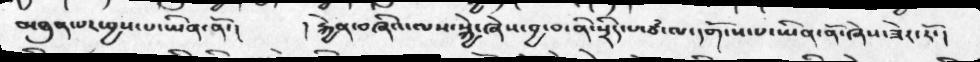མཐུན་པར་བྱས་པ་ཡིན་ནོ་།   །རྐྱེན་བཞིའ་ལས་སྐྱེ་ཞེས་བྱ་བ་ནི་སྲིད་པ་ཙཾ་ལ་དགོངས་པ་ཡིན་ནོ་ཞེས་ཟེར་རོ་།
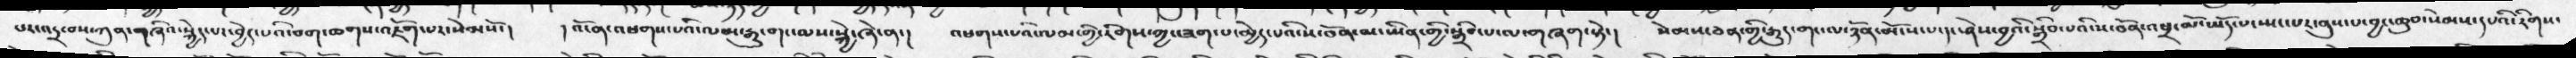པར་འདྲ་བས་ཀུན་གཞིའ་སྐྱེད་པར་བྱེད་པའི་བག་ཆགས་འཇོག་པར་སེམསོ་།  །འོ་ན་འཕགས་པའི་ལམ་རྒྱུ་གང་ལས་སྐྱེ་ཞེ་ན་།  འཕགས་པའི་ལམ་གྱི་རིགས་ཀྱང་ཟག་པ་མྱེད་པའི་ས་བོན་མ་ཡིན་གྱི་སྒྲིབ་པ་ལ་གཞག་སྟེ་།   སེམས་ཅན་གྱི་རྒྱུད་གང་ལ་ཉོན་མོངས་པ་དང་ཤེས་བྱའི་སྒྲིབ་པའི་ས་བོན་འཕྲ་མོ་ཡོད་པ་སྤང་སར་ནུས་པ་བྱང་ཆུབ་སེམས་དཔའི་རིགས་
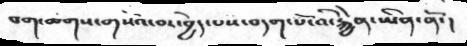བག་ཆགས་གསོའ་བར་བྱེད་པས་བདག་པོ་འི་རྐྱེན་ཡིན་ནོ་།
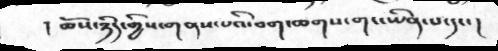། ཆོས་ཉིད་གྱིས་གནས་པའི་བག་ཆགས་གང་ཡིན་པ་དང་།
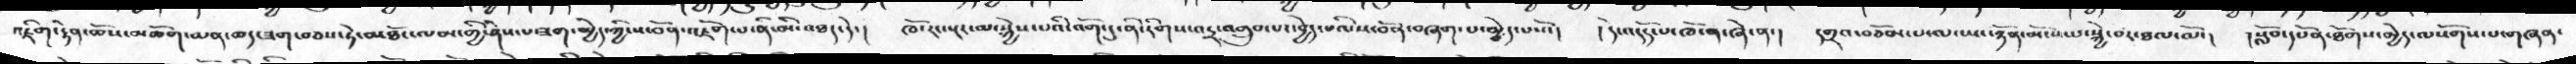འཇིག་རྟེན་ཆོས་མཆོག་མན་ཆད་ཟག་བཅས་ཏེ་མཐོང་ལམ་གྱི་ཤེས་པ་ཟག་མྱེད་ཀྱི་ས་བོན་འཇོག་པ་ནི་མི་འཐད་དེ་།   ཁོ་རང་སྔར་མ་སྐྱེས་པའི་འོག་དུ་ནི་རིགས་འདྲ་འགྲུབ་༷པར་བྱེད་པའི་ས་བོན་བཞག་པ་མྱེད་པསོ་།   །དེ་འདོད་པ་ཁོ་ན་ཞེ་ན་།  དགྲའ་བཅོམ་པ་ལ་ཡང་ཉོན་མོངས་པ་སྐྱེ་བར་ཐལ་ལོ་།   །སློབ་དཔོན་ཐོགས་མྱེད་ལསོགས་པ་གཞན་
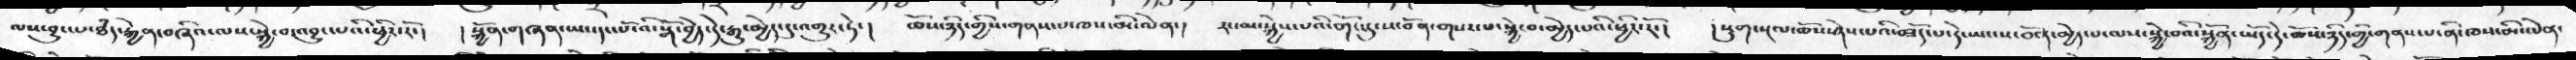ལས་བྱུང་པ་ཐཾད་རྐྱེན་བཞིའ་ལས་སྐྱེ་བ་འབྱུང་པའི་ཕྱིར་རོ་།  །སྐྱོན་གཞན་ཡང་དང་པོ་འི་སྒོ་བྱེད་དེ་རྒྱུ་མྱེད་དུ་འགྱུར་ཏེ་།  ཆོས་ཉིད་གྱིས་གནས་པ་ཁས་མི་ལེན་།  རང་མ་སྐྱེས་པའི་གོང་དུ་ས་བོན་གསར་པ་སྐྱེ་བ་མྱེད་པའི་ཕྱིར་རོ་།   །སྡུག་སྔལ་ཆོས་ཤེས་པའི་བཟོད་པ་དེ་ཡང་ས་བོན་མྱེད་པ་ལས་སྐྱེ་བའི་སྐྱོན་ཡོད་དེ་ཆོས་ཉིད་གྱི་གནས་པ་ནི་ཁས་མི་ལེན་
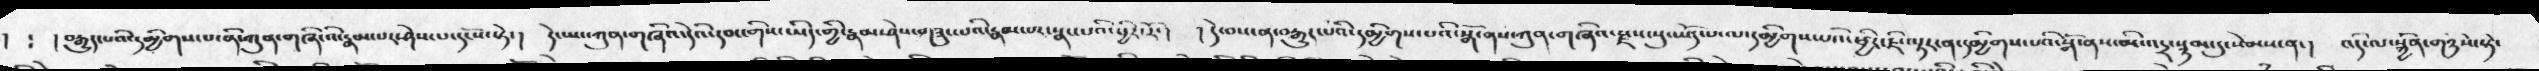།  ༴ །བརྒྱུད་པའི་དམྱིགས་པ་ནི་ཀུན་གཞི་འི་རྣམ་པར་ཤེས་པ་དངོས་སྟེ་།  དེ་ཡང་ཀུན་གཞིའ་དེའི་དབང་གིས་ཡིད་གྱི་རྣམ་ཤེས་གཟུང་པའི་རྣམ་པར་སྣང་པའི་ཕྱིར་རོ་།  །དེ་བས་ན་བརྒྱུད་པའི་དམྱིགས་པའི་སྒོ་ནས་ཀུན་གཞིའ་རྫས་སུ་ཡོད་པ་ལ་དམྱིགས་པའི་ཕྱིར་ཇི་ལྟར་ན་དམྱིགས་པའི་སྒོ་ནས་མི་འདྲ་སྙམ་དུ་སེམས་ན་།  འདི་ལ་སྐྱོན་གཉིས་སྟེ་
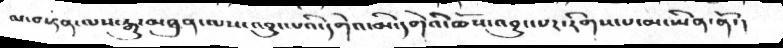མ་བསྟན་ལས་རྒྱུ་མཐུན་ལས་འབྱུང་པའི་དགེའ་མི་དགེའི་ཆོས་འབྱུང་པར་རིགས་པ་མ་ཡིན་ནོ་།
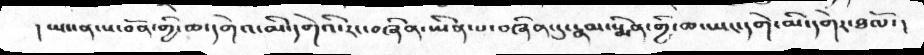། ཡང་ན་ས་བོན་གྱི་ཆ་དགེའ་མི་དགེའི་རང་བཞིན་ཡིན་པ་བཞིན་དུ་རྣམ་སྨིན་གྱི་ཆ་ཡང་དགེ་མི་དགེར་ཐལོ་།
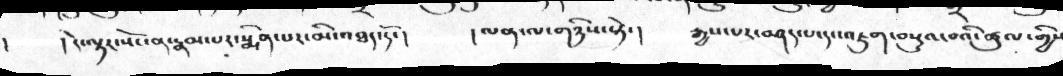།   །དེ་ལྟར་སོང་ན་རྣམ་པར་སྨིན་པར་མི་འཐད་དོ་།    །ལན་ལ་གཉིས་སྟེ་།   རྒྱས་པར་བཤད་པ་དང་འཇུག་བསྡུའ་བའི་ཚུལ་གྱིས
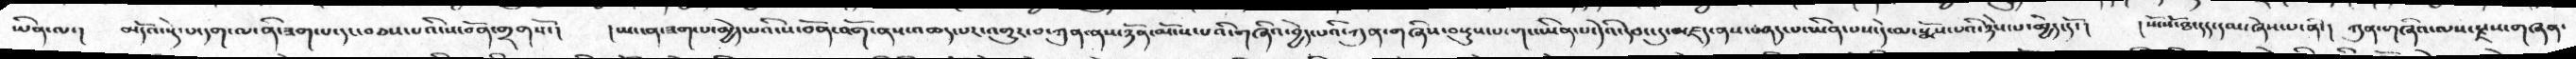ཡིན་ལ་།  མདོའ་སྟེ་པ་དག་ལ་་ནི་ཟག་པ་དང་བཅས་པའི་ས་བོན་གྲགསོ་།   །ཡང་ན་ཟག་པ་མྱེད་པའི་ས་བོན་འོག་ནས་འཆད་པར་འགྱུར་བ་ཀུན་ནས་ཉོན་མོངས་པའི་གཞིའ་བྱེད་པའི་ཀུན་གཞིས་བསྡུས་པ་གང་ཡིན་པ་དེའི་དབང་དུ་མཛད་ནས་བཤད་པ་ཡིན་པས་དེ་མ་སྨོས་པའི་ཉེས་པ་མྱེད་དོ་།   །སོ་སོ་ཐ་དད་དམ་ཞེས་པ་ནི་།   ཀུན་གཞིའ་ལས་རྫས་གཞན་
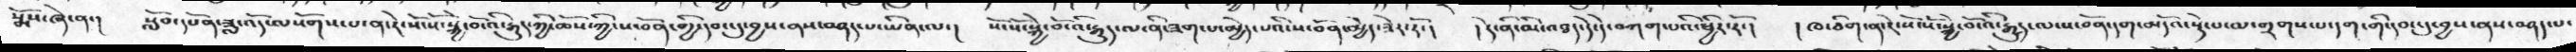སྨོས་ཞེ་ན་།   སློབ་དཔོན་ཟླ་འོད་ལསོགས་པ་ན་རེ་སོ་སོ་སྐྱེ་བོ་འི་རྒྱུད་ཀྱི་ཆོས་ཀྱི་ས་བོན་གྱི་དབང་དུ་བྱས་ནས་བཤད་པ་ཡིན་ལ་།  སོ་སོ་སྐྱེ་བོ་འི་རྒྱུད་ལ་ནི་ཟག་པ་མྱེད་པའི་ས་བོན་མྱེད་ཟེར་རོ་།  །དེ་ནི་མི་འཐད་དེ་དེ་བཀག་པའི་ཕྱིར་རོ་།   །ཁ་ཅིག་ན་རེ་སོ་སོ་སྐྱེ་བོ་འི་རྒྱུད་ལ་ས་བོན་དག་མདོའ་སྡེ་པ་ལ་གྲགས་པ་དག་གི་དབང་དུ་བྱས་ནས་བཤད་པ་
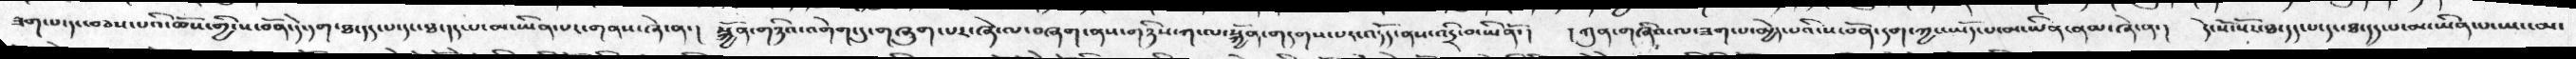ཟག་པ་དང་བཅས་པའི་ཆོས་ཀྱི་ས་བོན་དེ་དག་ཐ་དད་པ་དང་ཐ་དད་པ་མ་ཡིན་པར་གནས་ཞེ་ན་།  སྐྱོན་གཉིས་འགེག་དུ་གཞུག་པར་ཞེ་ལ་བཞག་ནས་གཉིས་ཀ་ལ་སྐྱོན་གདགས་པར་འདོད་ནས་འདྲི་བ་ཡིནོ་།   ཀུན་གཞིའ་ལ་ཟག་པ་མྱེད་པའི་ས་བོན་དག་ཀྱང་ཡོད་པ་མ་ཡིན་ནམ་ཞེ་ན་།  དེ་སོ་སོར་ཐ་དད་པ་དང་ཐ་དད་པ་མ་ཡིན་པ་ཡང་མ་
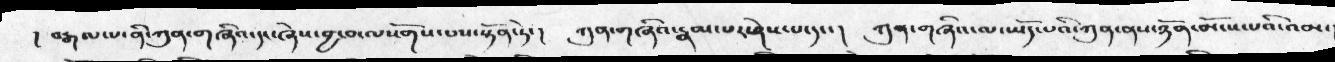། བརྒལ་པ་ནི་ཀུན་གཞིའ་དང་ཞེས་བྱ་བ་ལསོགས་པས་སྟོན་ཏེ་།  ཀུན་གཞིའ་རྣམ་པར་ཤེས་པ་དང་།  ཀུན་གཞིའ་ལ་ཡོད་པའི་ཀུན་ནས་ཉོན་མོངས་པའི་འམ་
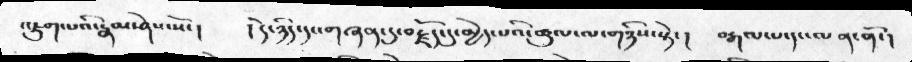འཇུག་པའི་རྣམ་ཤེས་སོ་།    །དེ་ཉིད་དང་གཞན་དུ་བརྗོད་དུ་མྱེད་པའི་ཚུལ་ལ་གཉིས་སྟེ་།    བརྒལ་པ་དང་ལན་ནོ་།
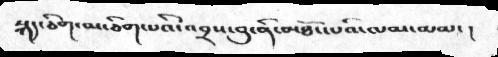སྐད་ཅིག་མ་ཅིག་པའི་འབྲས་བུ་ནི་མཐོང་པའི་ལམ་མམ་།
